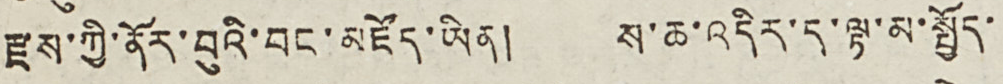རྫས་ཀྱི་ནོར་བུའི་བང་མཛོད་ཡིན། ས་ཆ་འདིར་ད་ལྟ་མ་སྤྱོད་
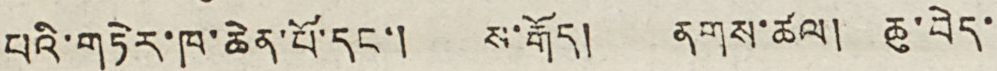པའི་གཏེར་ཁ་ཆེན་པོ་དང་། ས་རྒོད། ནགས་ཚལ། ཆུ་བེད་
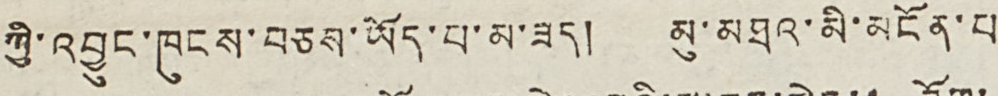ཀྱི་འབྱུང་ཁུངས་བཅས་ཡོད་པ་མ་ཟད། མུ་མཐའ་མི་མངོན་པ
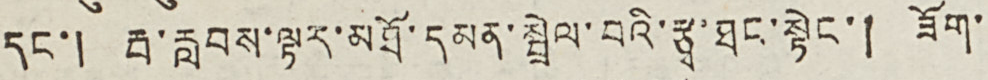དང་། རྦ་རླབས་ལྟར་མཐོ་དམན་སྤྲེལ་བའི་རྩྭ་ཐང་སྟེང་། ཟོག་
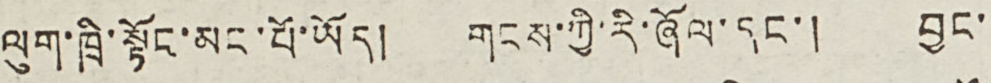ལུག་ཁྲི་སྟོང་མང་པོ་ཡོད། གངས་ཀྱི་རི་ཞོལ་དང་། བྱང་
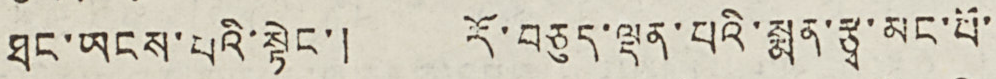ཐང་ཡངས་པའི་སྟེང་། རོ་བཅུད་ལྡན་པའི་སྨན་རྩྭ་མང་པོ་
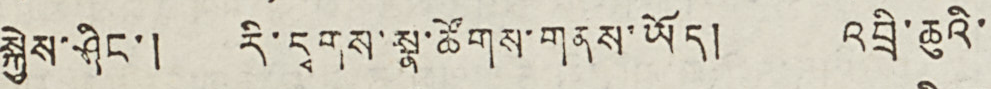སྐྱེས་ཤིང་། རི་དྭགས་སྣ་ཚོགས་གནས་ཡོད། འབྲི་ཆུའི་
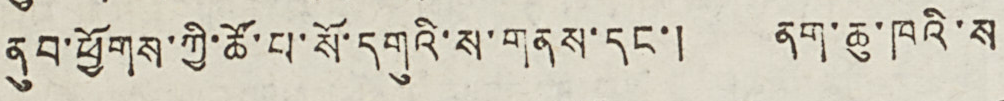ནུབ་ཕྱོགས་ཀྱི་ཚོ་པ་སོ་དགུའི་ས་གནས་དང་། ནག་ཆུ་ཁའི་ས
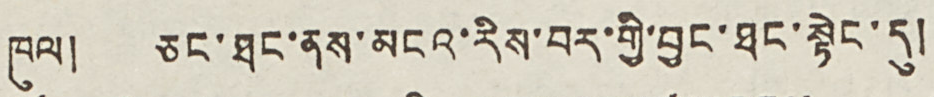ཁུལ། ཅང་ཐང་ནས་མངའ་རིས་བར་གྱི་བྱང་ཐང་སྟེང་དུ།
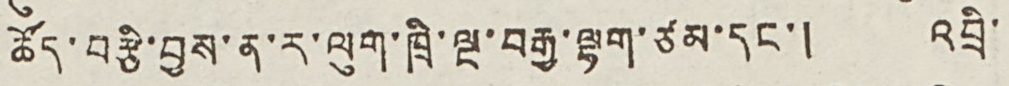ཚོད་བརྩི་བྱས་ན་ར་ལུག་ཁྲི་ལྔ་བརྒྱ་ལྷག་ཙམ་དང་། འབྲི་
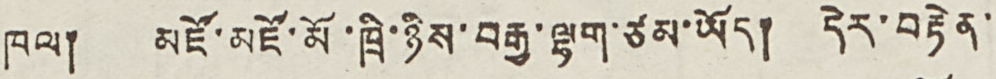ཁལ། མཛོ་མཛོ་མོ་ཁྲི་ཉིས་བརྒྱ་ལྷག་ཙམ་ཡོད། དེར་བརྟེན་
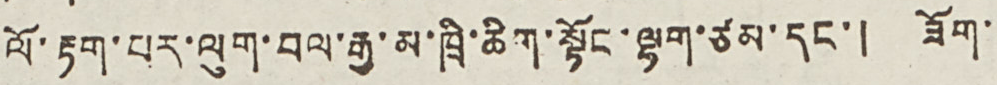ལོ་རྟག་པར་ལུག་བལ་རྒྱ་མ་ཁྲི་ཆིག་སྟོང་ལྷག་སམ་དང་། ཟོག་
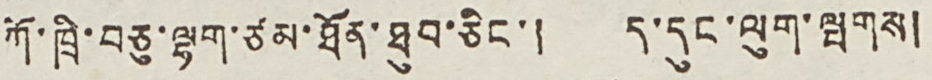ཀོ་ཁྲི་བཅུ་ལྷག་ཙམ་ཐོན་ཐུབ་ཅིང་། ད་དུང་ལུག་ལྤགས།
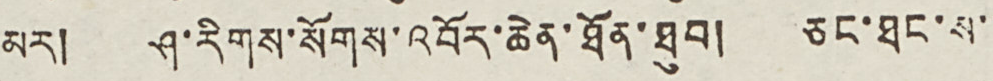མར། ཤ་རིགས་སོགས་འབོར་ཆེན་ཐོན་ཐུབ། ཅང་ཐང་ས་
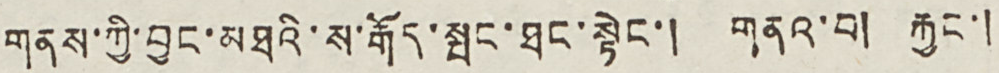གནས་ཀྱི་བྱང་མཐའི་ས་རྒོད་སྤང་ཐང་སྟེང་། གནའ་བ། རྐྱང་།
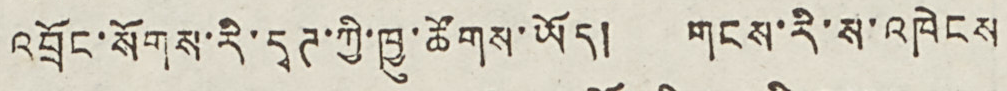འབྲོང་སོགས་རི་དྭཊ་ཀྱི་ཁྱུ་ཚོགས་ཡོད། གངས་རི་ས་འཁེངས
